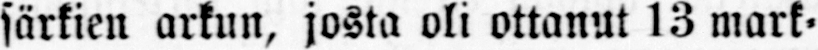särkien arkun, josta oli ottanut 13 mark-
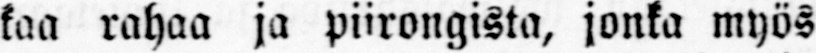kaa rahaa ja piirongista, jonka myös
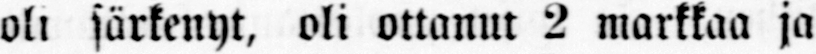oli särkenyt, oli ottanut 2 markkaa ja
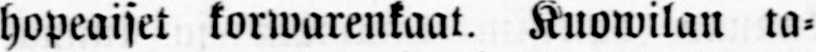hopeaiset korwarenkaat. Kuowilan ta-
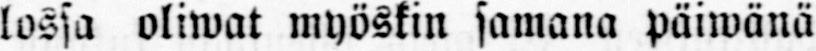lossa oliwat myöskin samana päiwänä
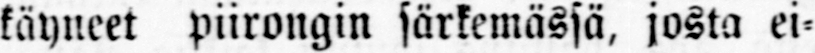käyneet piirongin särkemässä, josta ei-
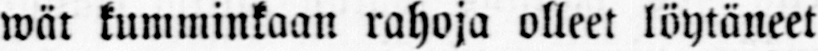wät kumminkaan rahoja olleet löytäneet
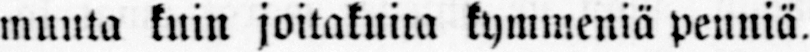muuta kuin joitakuita kymmeniä penniä.
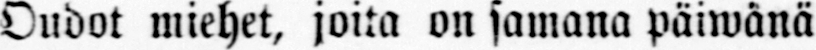Oudot miehet, joita on samana päiwänä
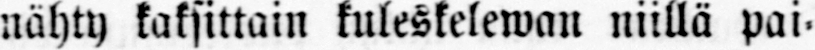nähty kaksittain kuleskelewan niillä pai-
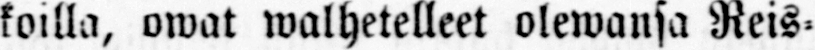koilla, owat walhetelleet olewansa Reis-
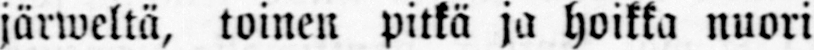järweltä, toinen pitkä ja hoikka nuori
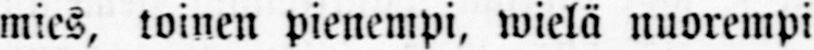mies, toinen pienempi, wielä nuorempi
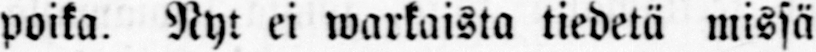poika. Nyt ei warkaista tiedetä missä
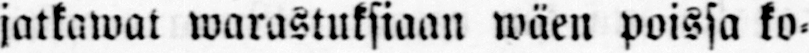jatkawat warastuksiaan wäen poissa ko-
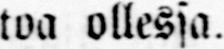toa ollessa.
